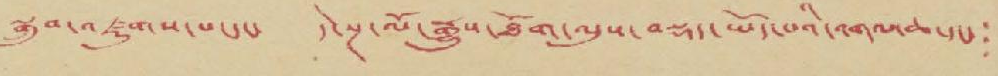སྒྲུབ་འཛུགས་པ་དང་ དེ་སྔ་ལོ་རྒྱུས་ཐོག་ལུས་བསྡད་ཡོད་པའི་འགལ་ཆ་དང་
